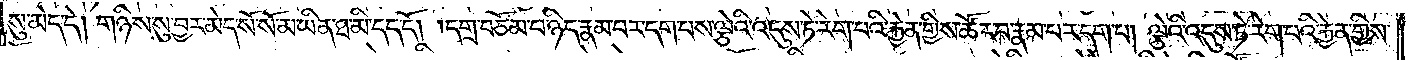སུ་མེད་དེ། གཉིས་སུ་བྱར་མེད་སོ་སོ་མ་ཡིན་ཐ་མི་དད་དོ། །དགྲ་བཅོམ་པ་ཉིད་རྣམ་པར་དག་པས་ལྕེའི་འདུས་ཏེ་རེག་པའི་རྐྱེན་གྱིས་ཚོར་བ་རྣམ་པར་དག་པ། ལྕེའི་འདུས་ཏེ་རེག་པའི་རྐྱེན་གྱིས་
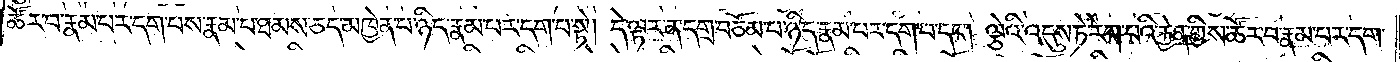ཚོར་བ་རྣམ་པར་དག་པས་རྣམ་པ་ཐམས་ཅད་མཁྱེན་པ་ཉིད་རྣམ་པར་དག་པ་སྟེ། དེ་ལྟར་ན་དགྲ་བཅོམ་པ་ཉིད་རྣམ་པར་དག་པ་དང༌། ལྕེའི་འདུས་ཏེ་རེག་པའི་རྐྱེན་གྱིས་ཚོར་བ་རྣམ་པར་དག་
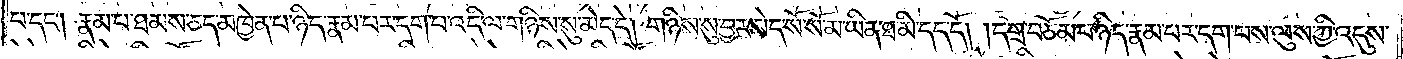པ་དང༌། རྣམ་པ་ཐམས་ཅད་མཁྱེན་པ་ཉིད་རྣམ་པར་དག་པ་འདི་ལ་གཉིས་སུ་མེད་དེ། གཉིས་སུ་བྱར་མེད་སོ་སོ་མ་ཡིན་ཐ་མི་དད་དོ། །དགྲ་བཅོམ་པ་ཉིད་རྣམ་པར་དག་པས་ལུས་ཀྱི་འདུས་
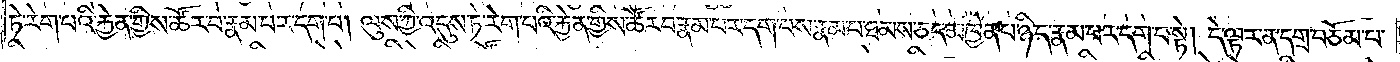ཏེ་རེག་པའི་རྐྱེན་གྱིས་ཚོར་བ་རྣམ་པར་དག་པ། ལུས་ཀྱི་འདུས་ཏེ་རེག་པའི་རྐྱེན་གྱིས་ཚོར་བ་རྣམ་པར་དག་པས་རྣམ་པ་ཐམས་ཅད་མཁྱེན་པ་ཉིད་རྣམ་པར་དག་པ་སྟེ། དེ་ལྟར་ན་དགྲ་བཅོམ་པ་
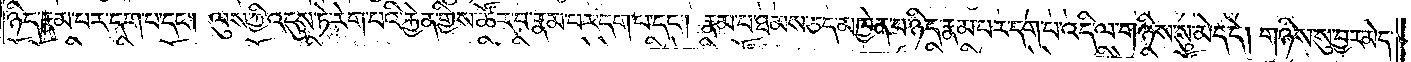ཉིད་རྣམ་པར་དག་པ་དང༌། ལུས་ཀྱི་འདུས་ཏེ་རེག་པའི་རྐྱེན་གྱིས་ཚོར་བ་རྣམ་པར་དག་པ་དང༌། རྣམ་པ་ཐམས་ཅད་མཁྱེན་པ་ཉིད་རྣམ་པར་དག་པ་འདི་ལ་གཉིས་སུ་མེད་དེ། གཉིས་སུ་བྱར་མེད་
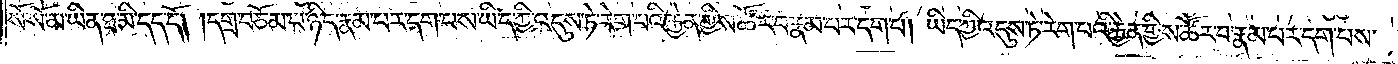སོ་སོ་མ་ཡིན་ཐ་མི་དད་དོ། །དགྲ་བཅོམ་པ་ཉིད་རྣམ་པར་དག་པས་ཡིད་ཀྱི་འདུས་ཏེ་རེག་པའི་རྐྱེན་གྱིས་ཚོར་བ་རྣམ་པར་དག་པ། ཡིད་ཀྱི་འདུས་ཏེ་རེག་པའི་རྐྱེན་གྱིས་ཚོར་བ་རྣམ་པར་དག་པས་
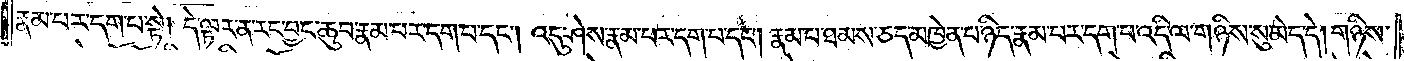རྣམ་པར་དག་པ་སྟེ། དེ་ལྟར་ན་རང་བྱང་ཆུབ་རྣམ་པར་དག་པ་དང༌། འདུ་ཤེས་རྣམ་པར་དག་པ་དང༌། རྣམ་པ་ཐམས་ཅད་མཁྱེན་པ་ཉིད་རྣམ་པར་དག་པ་འདི་ལ་གཉིས་སུ་མེད་དེ། གཉིས་
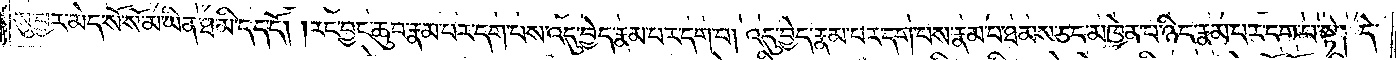སུ་བྱར་མེད་སོ་སོ་མ་ཡིན་ཐ་མི་དད་དོ། །རང་བྱང་ཆུབ་རྣམ་པར་དག་པས་འདུ་བྱེད་རྣམ་པར་དག་པ། འདུ་བྱེད་རྣམ་པར་དག་པས་རྣམ་པ་ཐམས་ཅད་མཁྱེན་པ་ཉིད་རྣམ་པར་དག་པ་སྟེ། དེ་
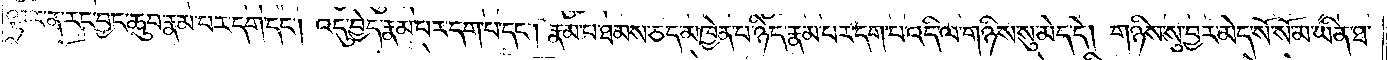ལྟར་ན་རང་བྱང་ཆུབ་རྣམ་པར་དག་པ་དང༌། འདུ་བྱེད་རྣམ་པར་དག་པ་དང༌། རྣམ་པ་ཐམས་ཅད་མཁྱེན་པ་ཉིད་རྣམ་པར་དག་པ་འདི་ལ་གཉིས་སུ་མེད་དེ། གཉིས་སུ་བྱར་མེད་སོ་སོ་མ་ཡིན་ཐ་
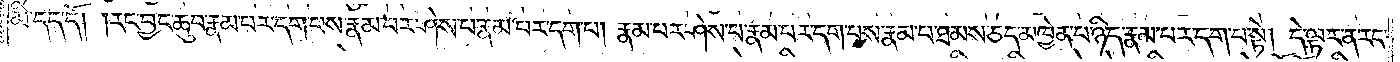མི་དད་དོ། །རང་བྱང་ཆུབ་རྣམ་པར་དག་པས་རྣམ་པར་ཤེས་པ་རྣམ་པར་དག་པ། རྣམ་པར་ཤེས་པ་རྣམ་པར་དག་པས་རྣམ་པ་ཐམས་ཅད་མཁྱེན་པ་ཉིད་རྣམ་པར་དག་པ་སྟེ། དེ་ལྟར་ན་རང་
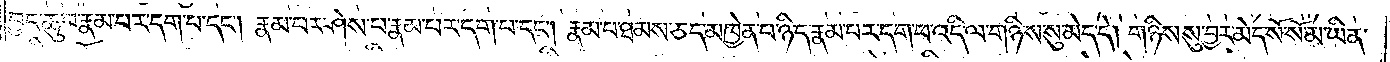བྱང་ཆུབ་རྣམ་པར་དག་པ་དང༌། རྣམ་པར་ཤེས་པ་རྣམ་པར་དག་པ་དང༌། རྣམ་པ་ཐམས་ཅད་མཁྱེན་པ་ཉིད་རྣམ་པར་དག་པ་འདི་ལ་གཉིས་སུ་མེད་དེ། གཉིས་སུ་བྱར་མེད་སོ་སོ་མ་ཡིན་
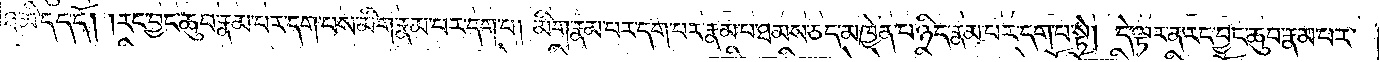ཐ་མི་དད་དོ། །རང་བྱང་ཆུབ་རྣམ་པར་དག་པས་མིག་རྣམ་པར་དག་པ། མིག་རྣམ་པར་དག་པས་རྣམ་པ་ཐམས་ཅད་མཁྱེན་པ་ཉིད་རྣམ་པར་དག་པ་སྟེ། དེ་ལྟར་ན་རང་བྱང་ཆུབ་རྣམ་པར་
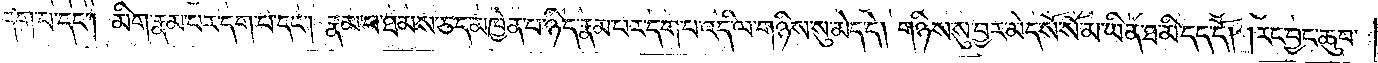དག་པ་དང༌། མིག་རྣམ་པར་དག་པ་དང༌། རྣམ་པ་ཐམས་ཅད་མཁྱེན་པ་ཉིད་རྣམ་པར་དག་པ་འདི་ལ་གཉིས་སུ་མེད་དེ། གཉིས་སུ་བྱར་མེད་སོ་སོ་མ་ཡིན་ཐ་མི་དད་དོ། །རང་བྱང་ཆུབ་
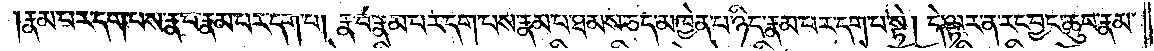རྣམ་པར་དག་པས་རྣ་བ་རྣམ་པར་དག་པ། རྣ་བ་རྣམ་པར་དག་པས་རྣམ་པ་ཐམས་ཅད་མཁྱེན་པ་ཉིད་རྣམ་པར་དག་པ་སྟེ། དེ་ལྟར་ན་རང་བྱང་ཆུབ་རྣམ་
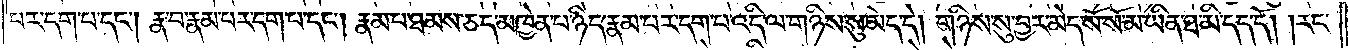པར་དག་པ་དང༌། རྣ་བ་རྣམ་པར་དག་པ་དང༌། རྣམ་པ་ཐམས་ཅད་མཁྱེན་པ་ཉིད་རྣམ་པར་དག་པ་འདི་ལ་གཉིས་སུ་མེད་དེ། གཉིས་སུ་བྱར་མེད་སོ་སོ་མ་ཡིན་ཐ་མི་དད་དོ། །རང་
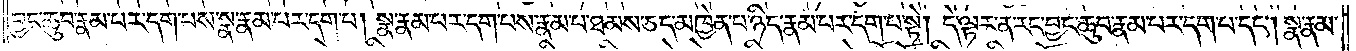བྱང་ཆུབ་རྣམ་པར་དག་པས་སྣ་རྣམ་པར་དག་པ། སྣ་རྣམ་པར་དག་པས་རྣམ་པ་ཐམས་ཅད་མཁྱེན་པ་ཉིད་རྣམ་པར་དག་པ་སྟེ། དེ་ལྟར་ན་རང་བྱང་ཆུབ་རྣམ་པར་དག་པ་དང༌། སྣ་རྣམ་
